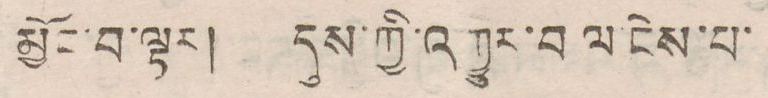མྱོང་བ་ལྟར། དུས་ཀྱི་འགྱུར་བ ལ་ངེས་པ་
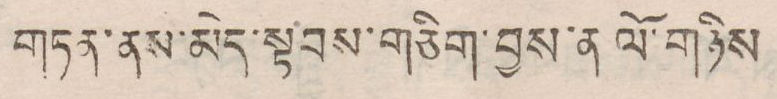གཏན་ནས་མེད་སྟབས་གཅིག་བྱས་ན ལོ་གཉིས
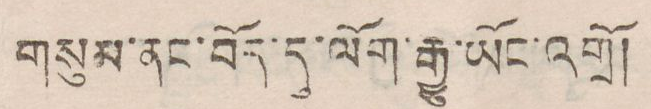གསུམ་ནང་བོད་དུ་ལོག་རྒྱུ་ཡོང་འགྲོ།
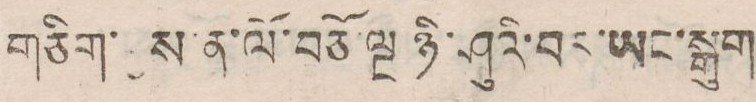གཅིག་བྱས་ན་ལོ་བཅོ་ལྔ ཉི་ཤུའི་བར་ཡང་སྒུག
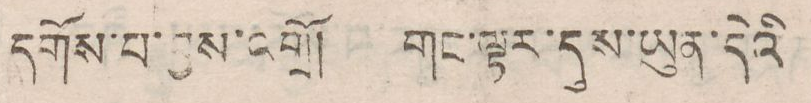དགོས་པ་བྱས་འགྲོ། གང་ལྟར་དུས་ཡུལ་དེའི
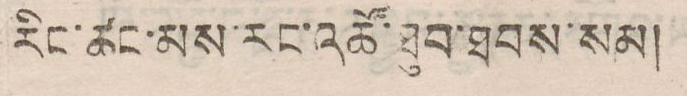རིང་ཚང་མས་རང་འཚོ་ཐུབ་ཐབས་སམ།
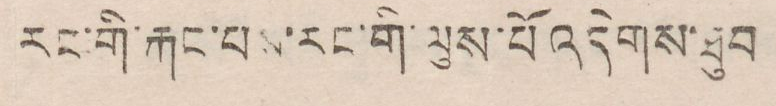རང་གི་རྐང་བས་རང་གི་ལུས་པོ་འདེགས་ཐུབ
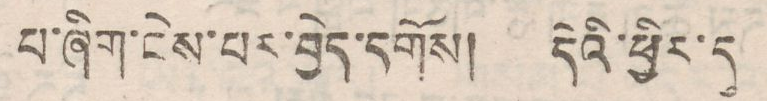པ་ཞིག་ངེས་པར་བྱེད་དགོས། དེའི་ཕྱིར་དུ
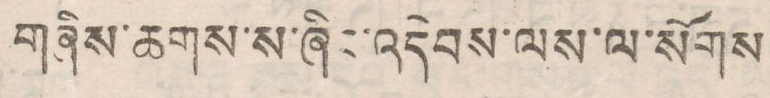གཞིས་ཆགས་ས་ཞིང་འདེབས་ལས་ལ་སོགས
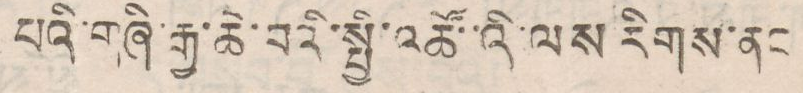པའི་གཞི་རྒྱ་ཆེ་བའི་སྤྱི་འཚོ་་འི་ལས རིགས་ནང
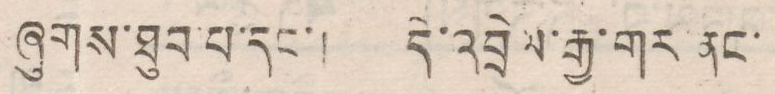ཞུགས་ཐུབ་པ་དང་། དེ་འབྲེལ་རྒྱ་གར་ནང་
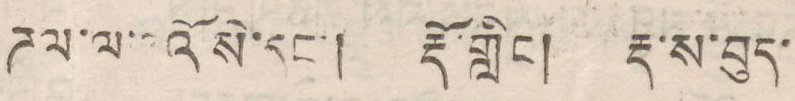ཌལ་ལ་འོ སེ་དང་། རྡོ་གླིང། རྡ་ས་བུད་
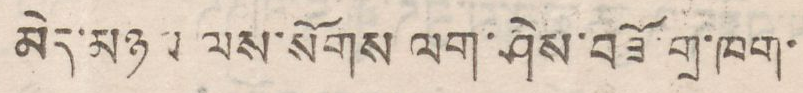མེད་མཉམ ལས་སོགས ལག་ཤེས་བཟོ་གྲ་ཁག་
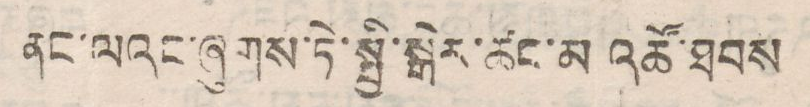ནང་ལའང་ཞུགས་ཏེ་སྤྱི་སྒེར་ཚང་མ ཚང་མ འཚོ་ཐབས
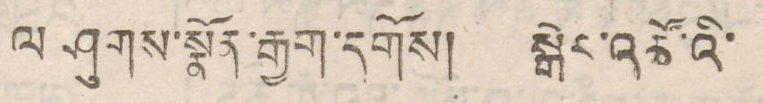ལ ཤུགས་སྣོན་རྒྱག་དགོས། སྒེར་འཚོའི་
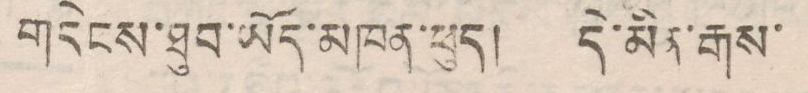གདེངས་ཐུབ་ཡོད་མཁན་ཕུད། དེ་མིན་རྒས་
